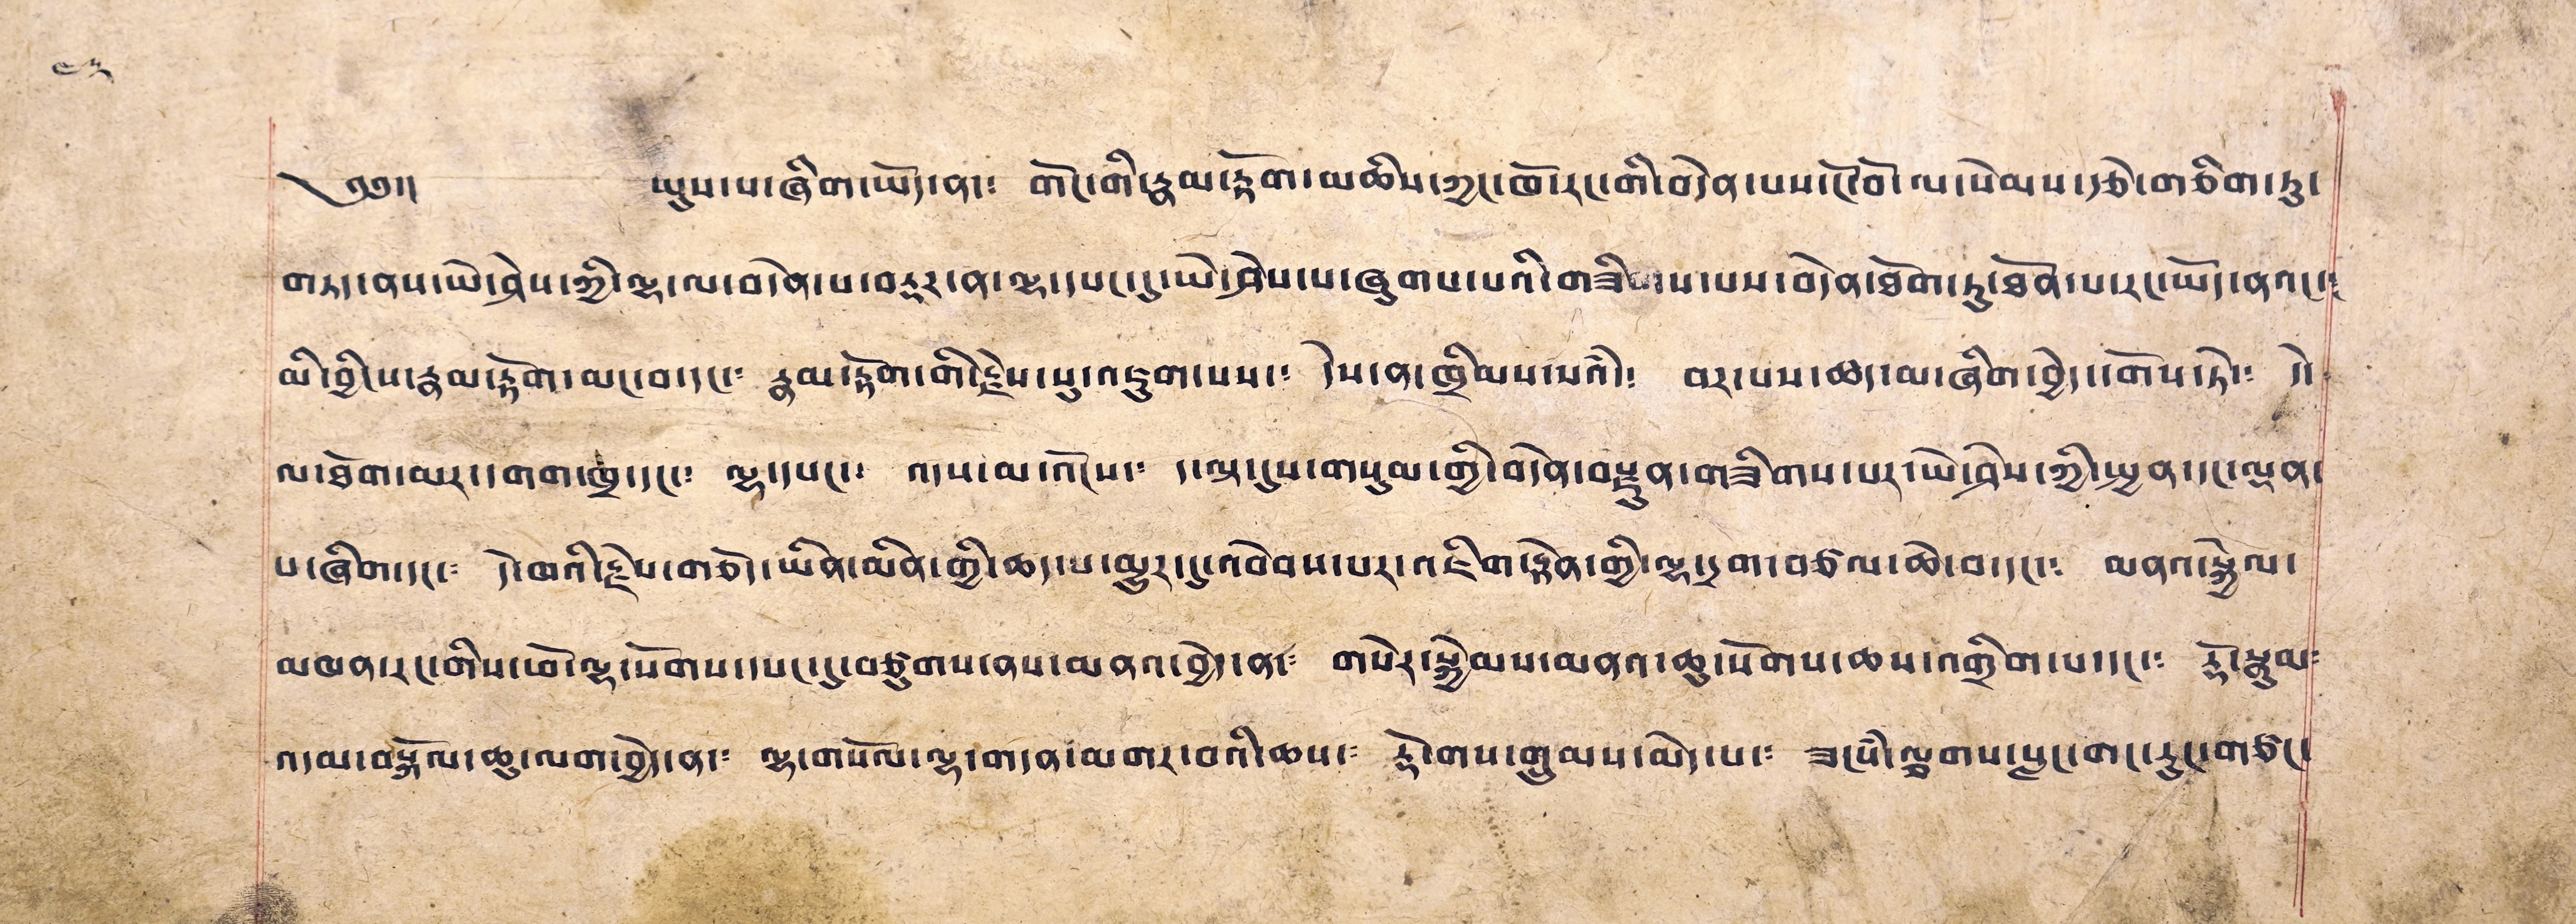༄༅།།  ཡུས་པ་ཞིག་ཡོད་ན་༴ གོང་གི་རྣམ་རྟོག་མཆིས་ཀྱང་ཁོ་རང་གི་བདེན་པས་ངོ་བོ་ལ་སེམས་རྩེ་གཅིག་ཏུ་
གཏད་ནས་ཡེ་ཤེས་ཀྱི་ལྷ་ལ་བདེན་པ་བརྡར་ན་ལྷ་དཔང་དུ་ཡེ་ཤེས་པ་ཞུགས་པའི་གཟིགས་པས་བདེན་ཐོག་ཏུ་ཐོན་པ་རང་ཡོད་ནའང་༴
མི་བྱིངས་རྣམ་རྟོག་མང་བ་དང་༴ རྣམ་རྟོག་གི་རྗེས་སུ་འཇུག་པས་༴ དེས་ན་ཁྲིམས་པའཾ་༴ བར་པས་ཚད་མ་ཞིག་བྱེད་དགོས་ཏེ་
ལ་ཐོག་མར་དགག་ཁྲ་དང་༴ ལྷ་དཔང་༴ འདས་མ་འོངས་༴ ད་ལྟ་དུས་གསུམ་གྱི་བདེན་བརྫུན་གཟིགས་པར་ཡེ་ཤེས་ཀྱི་སྤྱན་དང་ལྡན་
པ་ཞིག་དང་༴ དེ་ཁའི་རྗེས་གཅོད་ཡིན་མིན་གྱི་ཆད་པ་མྱུར་དུ་འབེབས་པར་འཇིག་རྟེན་གྱི་ལྷ་དྲག་བཙལ་ཆེ་བ་དང་༴ མནའ་སྐྱེལ་
མཁན་རང་གིས་ཕོ་ལྷ་སོགས་དཔང་དུ་བཙུགས་ནས་མནའ་བྱེད་ན་༴ གསེར་སྐྱེམས་མནའ་ཆུ་སོགས་ཆས་འགྲིག་པ་དང་༴ རྡོ་སྣུམ༴
འདམ་བསྐོལ་ཆུ་ལག་བྱེད་ན་༴ ལྷ་གསོལ་ལྷ་གདན་མགར་བའི་ཆས་༴ རྡོ་གས་གྲུམས་མེད་པ་༴ ཟངསཾ་ལྕགས་སླང་གང་རུང་གཙང་
